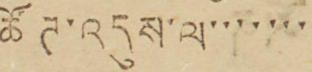ཚོཊ་འདུས་ལ་་་་་་་
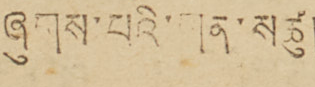ཞུགས་པའི་གན་སཚུ།
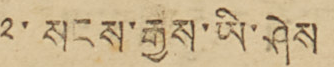༢་ སངས་རྒྱས་ཡི་ཤེས
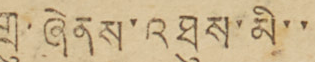གྲུ་ཞེནས་འཐུས་མི་་
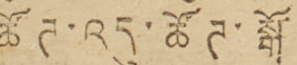ཚོཊ་འདུ་ཚོཊ་སྒོ་
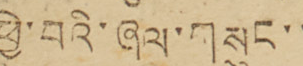ཕྱེ་བའི་ཞལ་གསུང་་
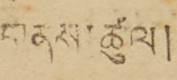གནས་ཚུལ།
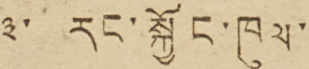༣་ རང་སྐྱོང་ཁུལ་
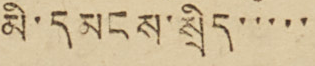མི་དམངས་སྲིད་་་་་
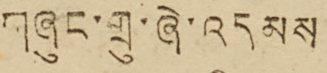གཞུང་གྲུ་ཞེ་འདམས
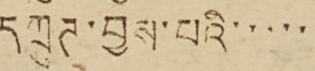དཀྲུཊ་བྱས་པའི་་་་་
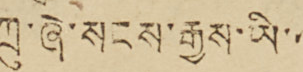ཀྲུ་ཞེ་སངས་རྒྱས་ཡི་་
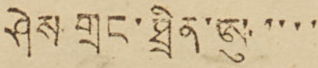ཤེས གྲང་ཐྲིན་ཨུ་་་་་
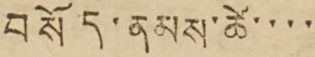བསོད་ནམས་ཚེ་་་་
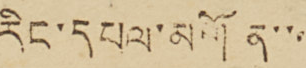རིང་དཔལ་མགོན་་་
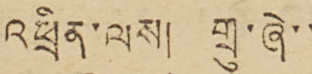འཕྲིན་ལས། གྲུ་ཞེ་་
